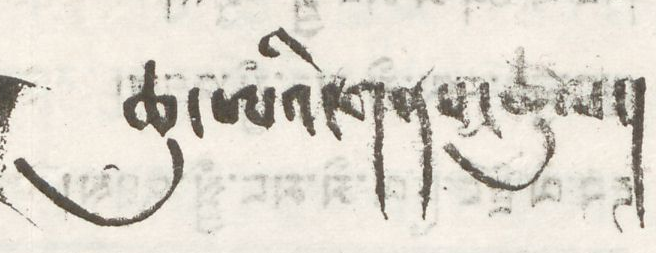ཆུ་ཨའི་གནས་ཚུལ།
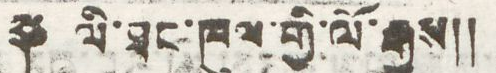༈ ལི་ཐང་ཁུལ་གྱི་ལོ་རྒྱུས།།
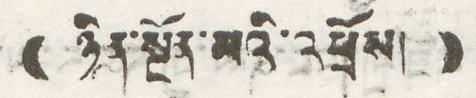(( ཉིན་སྔོན་མའི་འཕྲོས། ))
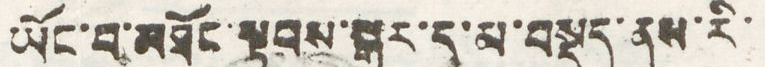ཡོང་བ་མཐོང་སྟབས་སྒང་དུ་མ་བསྡད་ནས་རི་
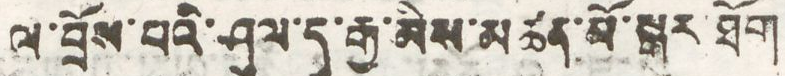ལ་བྲོས་པའི་ཤུལ་དུ་རྒྱ་མིས་མཚན་མོ་སྒར་ཐོག
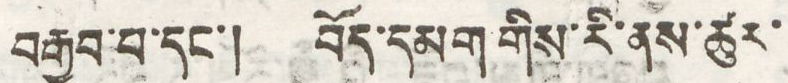བརྒྱབ་པ་དང་། བོད་དམག་གིས་རི་ནས་ཚུར་
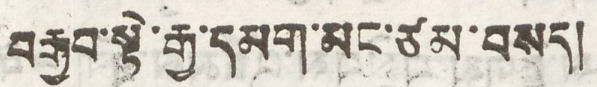བརྒྱབ་སྟེ་རྒྱ་དམག་མང་ཙམ་བསད།
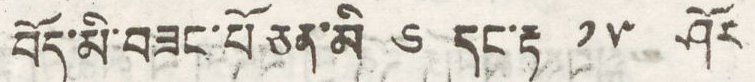བོད་མི་བཟང་པོ་ཅན་མི ༦ དང་རྟ ༡༥ ཤོར
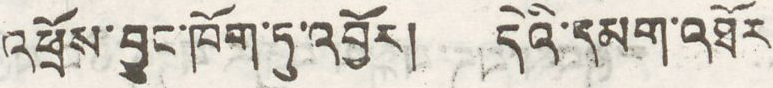འཕྲོས་བྱུང་ཁོག་ཏུ་འབྱོར། དེའི་དམག་འཐོར
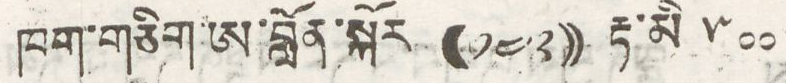ཁག་གཅིག་ཨ་བློན་སྐོར ((༡༤༢)) རྟ་མི་ ༥༠༠
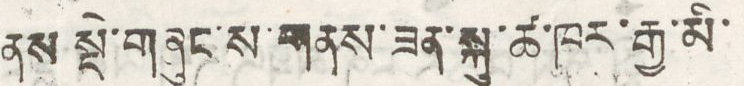ནས་སྡེ་གཞུང་ས་གནས་ཟན་སྐུ་ཚ་ཁར་རྒྱ་མི་
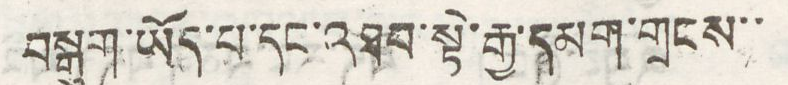བསྒུག་ཡོད་པ་དང་འཐབ་སྟེ་རྒྱ་དམག་གྲངས་་
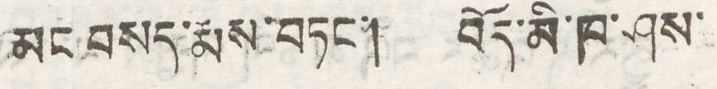མང བསད་རྨས་བཏང་། བོད་མི་ཁ་ཤས་
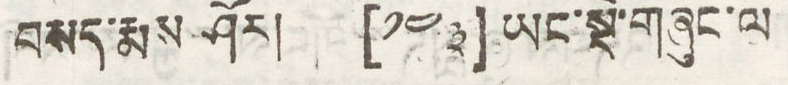བསད་རྨས ཤོར། [༡༤༣] ཡང་སྡེ་གཞུང་ལ
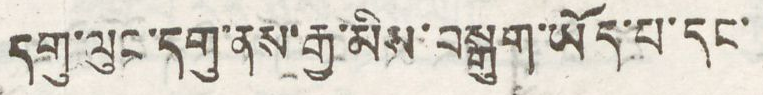དགུ་ལུང་དགུ་ནས་རྒྱ་མིས་བསྒུག་ཡོད་པ་དང་
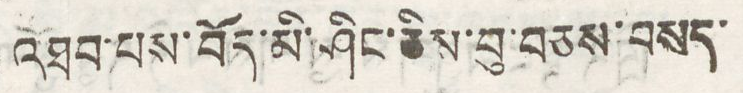འཐབ་པས་བོད་མི་ཤིང་ཅིས་སུ་བཅས་བསད་
